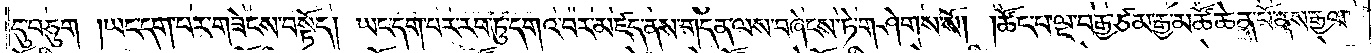དུ་བཅུག །ཡང་དག་པར་གཟེངས་བསྟོད། ཡང་དག་པར་རབ་ཏུ་དགའ་བར་མཛད་ནས་གདན་ལས་བཞེངས་ཏེ་གཤེགས་སོ། །ཚོང་པ་ལྔ་བརྒྱ་ཙམ་རྒྱ་མཚོ་ཆེན་པོ་ནས་རྒྱལ་
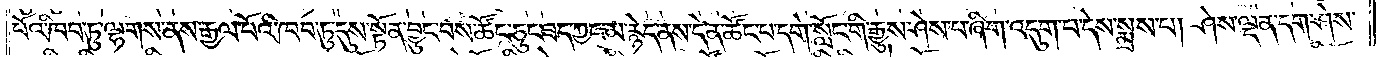པོའི་ཁབ་ཏུ་ལྷགས་ནས་རྒྱལ་པོའི་ཁབ་ཏུ་དུས་སྟོན་བྱུང་བས་ཚོང་ཅུང་ཟད་ཀྱང་མ་རྙེད་ནས་དེ་ན་ཚོང་པ་དགེ་སློང་གི་རྒྱུས་ཤེས་པ་ཞིག་འདུག་པ་དེས་སྨྲས་པ། ཤེས་ལྡན་དག་ཤེས་
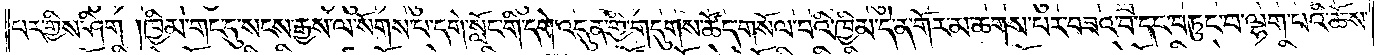པར་གྱིས་ཤིག །ཁྱིམ་གང་དུ་སངས་རྒྱས་ལ་སོགས་པ་དགེ་སློང་གི་དགེ་འདུན་གྱི་གདུགས་ཚོད་གསོལ་པའི་ཁྱིམ་དེ་ན་གོར་མ་ཆགས་པར་བཟའ་བ་དང་བཏུང་བ་ལྷག་པའི་ཆོས་
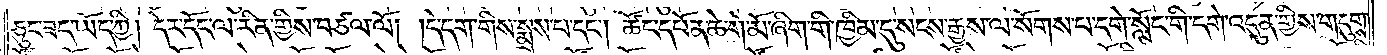ཅུང་ཟད་ཡོད་ཀྱི། དེར་དོང་ལ་རིན་གྱིས་བཙལ་ལོ། །དེ་དག་གིས་སྨྲས་པ་དང༌། ཚོང་དཔོན་ཆེ་གེ་མོ་ཞིག་གི་ཁྱིམ་དུ་སངས་རྒྱས་ལ་སོགས་པ་དགེ་སློང་གི་དགེ་འདུན་གྱིས་གདུགས་
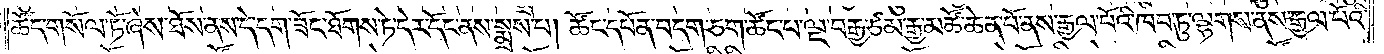ཚོད་གསོལ་ཏོ་ཞེས་ཐོས་ནས་དེ་དག་ཟོང་ཐོགས་ཏེ་དེར་དོང་ནས་སྨྲས་པ། ཚོང་དཔོན་བདག་ཅག་ཚོང་པ་ལྔ་བརྒྱ་ཙམ་རྒྱ་མཚོ་ཆེན་པོ་ནས་རྒྱལ་པོའི་ཁབ་ཏུ་ལྷགས་ནས་རྒྱལ་པོའི་
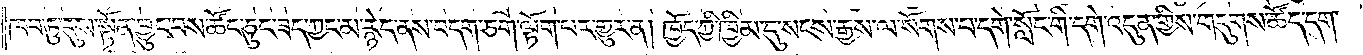ཁབ་ཏུ་དུས་སྟོན་བྱུང་བས་ཚོང་ཅུང་ཟད་ཀྱང་མ་རྙེད་ནས་བདག་ཅག་ལྟོག་པར་གྱུར་ན། ཁྱོད་ཀྱི་ཁྱིམ་དུ་སངས་རྒྱས་ལ་སོགས་པ་དགེ་སློང་གི་དགེ་འདུན་གྱིས་གདུགས་ཚོད་དག་
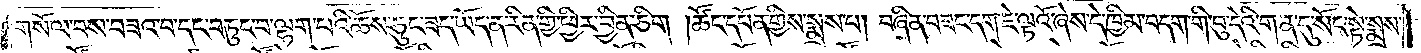གསོལ་བས་བཟའ་བ་དང་བཏུང་བ་ལྷག་པའི་ཆོས་ཅུང་ཟད་ཡོད་ན་རིན་གྱི་ཕྱིར་བྱིན་ཅིག །ཚོང་དཔོན་གྱིས་སྨྲས་པ། བཞིན་བཟང་དག་ཇེ་ལྟའོ་ཞེས་དེ་ཁྱིམ་བདག་གི་བུ་དེའི་གན་དུ་སོང་སྟེ་སྨྲས་
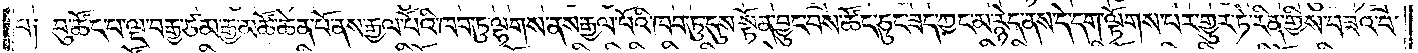པ༑ བུ་ཚོང་པ་ལྔ་བརྒྱ་ཙམ་རྒྱ་མཚོ་ཆེན་པོ་ནས་རྒྱལ་པོའི་ཁབ་ཏུ་ལྷགས་ནས་རྒྱལ་པོའི་ཁབ་ཏུ་དུས་སྟོན་བྱུང་བས་ཚོང་ཅུང་ཟད་ཀྱང་མ་རྙེད་ནས་དེ་དག་ལྟོགས་པར་གྱུར་ཏེ་རིན་གྱིས་བཟའ་བ་
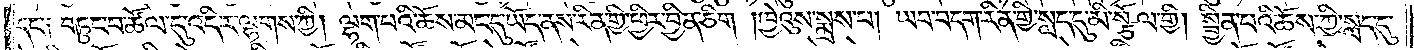དང་༑ བཏུང་བ་ཚོལ་དུ་འདིར་ལྷགས་ཀྱི། ལྷག་པའི་ཆོས་མང་དུ་ཡོད་ནས་རིན་གྱི་ཕྱིར་བྱིན་ཅིག །ཁྱེའུས་སྨྲས་པ། ཡབ་བདག་རིན་གྱི་སླད་དུ་མི་སྩོལ་གྱི། སྦྱིན་པའི་ཆོས་ཀྱི་སླད་དུ་
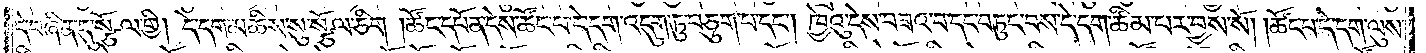དེ་བཞིན་དུ་སྩོལ་གྱི། དེ་དག་མཆིས་སུ་སྩོལ་ཅིག །ཚོང་དཔོན་དེས་ཚོང་པ་དེ་དག་འདུག་ཏུ་བཅུག་པ་དང༌། ཁྱེའུ་དེས་བཟའ་བ་དང་བཏུང་བས་དེ་དག་ཚིམ་པར་བྱས་སོ། །ཚོང་པ་དེ་དག་ལུས་
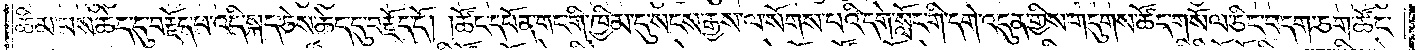ཚིམ་པས་ཆེད་དུ་བརྗོད་པ་འདི་སྐད་ཅེས་ཆེད་དུ་བརྗོད་དོ། །ཚོང་དཔོན་གང་གི་ཁྱིམ་དུ་སངས་རྒྱས་ལ་སོགས་པའི་དགེ་སློང་གི་དགེ་འདུན་གྱིས་གདུགས་ཚོད་གསོལ་ཅིང་བདག་ཅག་ཚོང་
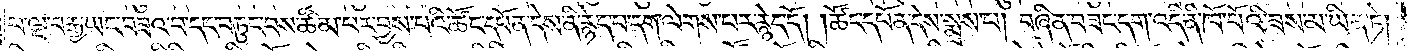པ་ལྔ་བརྒྱ་ཡང་བཟའ་བ་དང་བཏུང་བས་ཚིམ་པར་བྱས་པའི་ཚོང་དཔོན་དེས་ནི་རྙེད་པ་དག་ལེགས་པར་རྙེད་དོ། །ཚོང་དཔོན་དེས་སྨྲས་པ། བཞིན་བཟང་དག་འདི་ནི་ཁོ་བོའི་ཟས་མ་ཡིན་ཏེ།
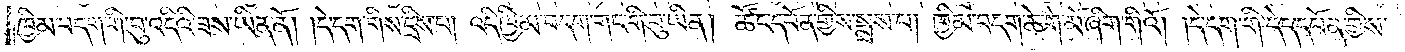ཁྱིམ་བདག་གི་བུ་འདིའི་ཟས་ཡིན་ནོ། །དེ་དག་གིས་དྲིས་པ། འདི་ཁྱིམ་བདག་གང་གི་བུ་ཡིན། ཚོང་དཔོན་གྱིས་སྨྲས་པ། ཁྱིམ་བདག་ཆེ་གེ་མོ་ཞིག་གིའོ། །དེ་དག་གི་དེད་དཔོན་གྱིས་
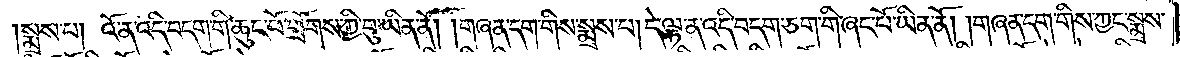སྨྲས་པ། འོ་ན་འདི་བདག་གི་ཆུང་པོ་གྲོགས་ཀྱི་བུ་ཡིན་ནོ། །གཞན་དག་གིས་སྨྲས་པ། དེ་ལྟ་ན་འདི་བདག་ཅག་གི་ཞང་པོ་ཡིན་ནོ། །གཞན་དག་གིས་ཀྱང་སྨྲས་
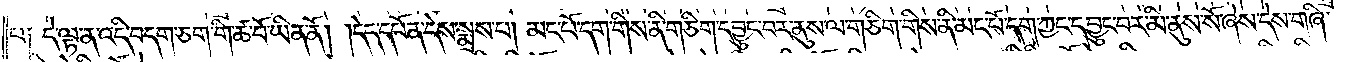པ༑ དེ་ལྟ་ན་འདི་བདག་ཅག་གི་ཚ་བོ་ཡིན་ནོ། །དེད་དཔོན་དེས་སྨྲས་པ། མང་པོ་དག་གིས་ནི་གཅིག་དབྱུང་བར་ནུས་ལ་གཅིག་གིས་ནི་མང་པོ་དག་ཀྱང་དབྱུང་བར་མི་ནུས་སོ་ཞེས་དེས་གཞི་
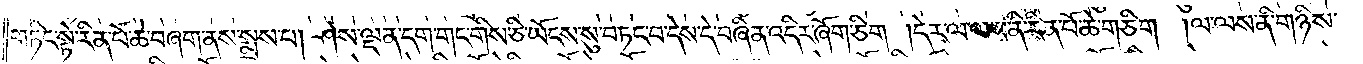གཏིང་སྟེ་རིན་པོ་ཆེ་བཞག་ནས་སྨྲས་པ། ཤེས་ལྡན་དག་གང་གིས་ཅི་ཡོངས་སུ་བཏང་བ་དེས་དེ་བཞིན་འདིར་ཞོག་ཅིག །དེར་ལ་ལས་ནི་རིན་པོ་ཆེ་གཅིག །ལ་ལས་ནི་གཉིས་
